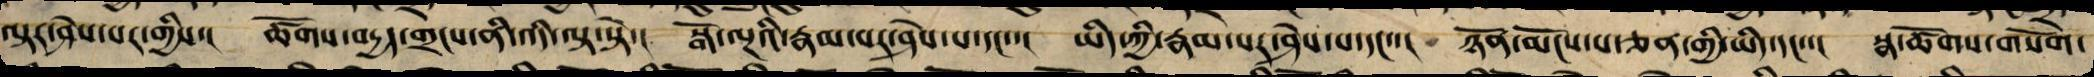ལྟར་ཤེས་པར་གྱིས་། ཚོགས་བདྱད་གྲངས་ནི་འདི་ལྟ་སྟེ་། སྒོ་ལྔའི་རྣམ་པར་ཤེས་པ་དང་་། ཡིད་ཀྱི་རྣམ་པར་ཤེས་པ་དང་་། ཉོན་མོངས་པ་ཅན་གྱི་ཡིད་དང་་། སྣ་ཚོགས་གསོག་
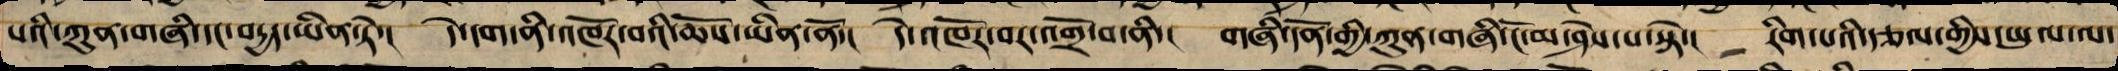པའི་ཀུན་གཞི་དང་བདྱད་ཡིན་ཏེ་། དེ་དག་ནི་འཁོར་བའི་ཆོས་ཡིན་ནོ་། དེ་འཁོར་བར་འགྲོ་བ་ནི་། གཞི་དོན་གྱི་ཀུན་གཞི་ངོ་མ་ཤེས་པ་སྟེ་། རིག་པའི་རྩལ་གྱིས་ཡུལ་ལ་
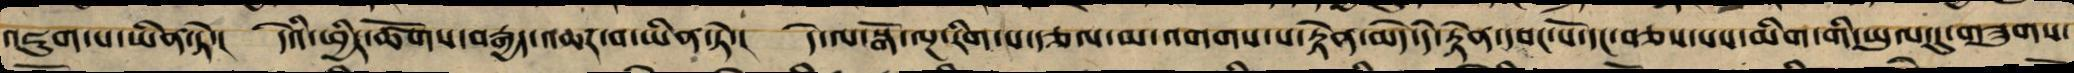འཇུག་པ་ཡིན་ཏེ་། དེའི་ཕྱིར་ཚོགས་བརྒྱད་འཆར་བ་ཡིན་ཏེ་། དེ་ལ་སྒོ་ལྔ་རིག་པ་རྩལ་མ་འགགས་པ་རྟེན་མེད་དེ་རྟེན་དབང་པོ་དང་བཅས་པས་མིག་གི་ཡུལ་དུ་གཟུགས་
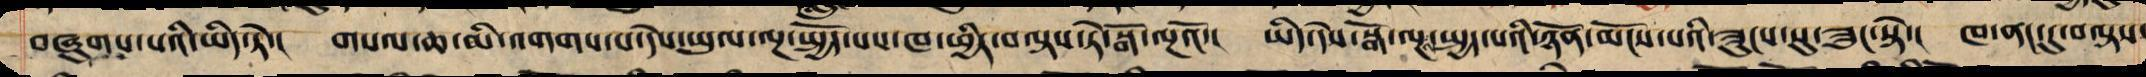བཞུགས་པའི་ཡིད་ཏེ་། གསལ་ཆ་མི་འགགས་པ་དེས་ཡུལ་ལྔ་སྤྱོད་པས་ཁ་ཕྱིར་བལྟས་ཏེ་སྒོ་ལྔའོ་། ཡིད་དེས་སྒོ་ལྔས་སྤྱད་པའི་ཉོན་མོངས་པ་ཟུངས་སུ་བཟུང་སྟེ་། ཁ་ནང་དུ་བལྟས་
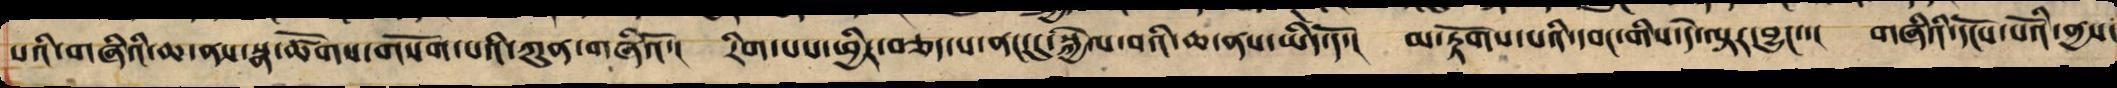པའི་གཞིའི་ཆ་ནས་སྣ་ཚོགས་གསོག་པའི་ཀུན་གཞིའོ་། རིག་པས་ཕྱིར་བཅད་པ་ནང་དུ་སྐྱེལ་བའི་ཆ་ནས་ཡིད་དོ་། མ་རྟོགས་པའི་དབང་གིས་དེ་ལྟར་བྱུང་་། གཞིའི་དངོས་པོའི་ནྱས་
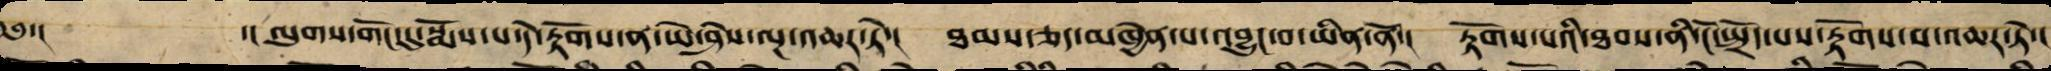༄༅་། ་། ལུགས་གོང་དུ་སྨོས་པ་དེ་རྟོགས་ན་ཡེ་ཤེས་ལྔ་འཆར་ཏེ་། ཐམས་ཅད་མཁྱེན་པ་འབྱུང་བ་ཡིན་ནོ་། རྟོགས་པའི་ཐབས་ནི་ངོ་སྤྲོད་པས་རྟོགས་པ་འཆར་ཏེ་།
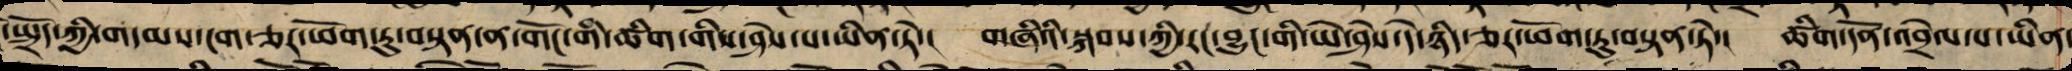་སྤྲོད་ཀྱི་གདམས་ངག་ཅར་ཕོག་ཏུ་བསྟན་ན་གོང་གི་ཚིག་གིས་ཤེས་པ་ཡིན་ཏེ་། གཞིའི་སྐབས་ཀྱི་རང་བྱུང་གི་ཡེ་ཤེས་དེ་ཉིད་ཅར་ཕོག་ཏུ་བསྟན་ཏེ་། ཚིག་དོན་འབྲེལ་པ་ཡིན་
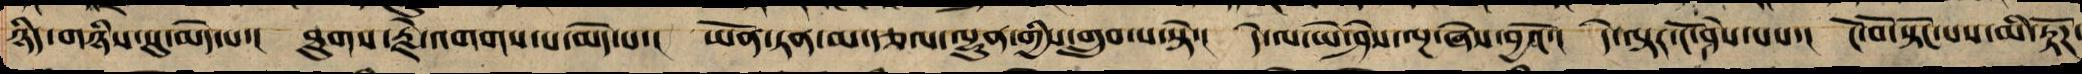ཉིད་གཉིས་སུ་མེད་པ་། ཐུགས་རྗེ་འགག་པ་མེད་པ་། ཡོན་ཏན་མ་རྩལ་ལྷུན་གྱིས་གྲུབ་པ་སྟེ་། དེ་ལ་ཡེ་ཤེས་ལྔ་ཞེས་བྱའོ་། དེ་ལྟར་ངོ་ཤེས་པས་། ངོ་བོ་སྟོང་པས་མི་རྟོཌ་
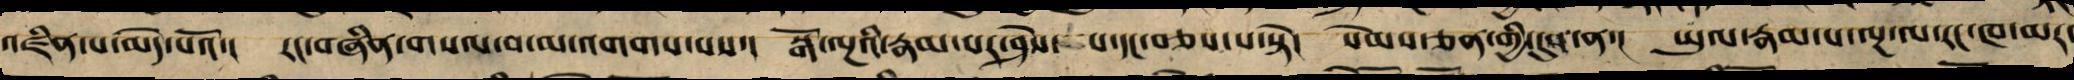འཛིན་པ་མེད་པའོ་། རང་བཞིན་གསལ་བ་མ་འགགས་པས་། སྒོ་ལྔའི་རྣམ་པར་ཤེས་ པ་དང་བཅས་པ་སྟེ། སེམས་ཅན་གྱི་དུས་ན་། ཡུལ་རྣམ་པ་ལྔ་ལ་རང་ཁ་མར་
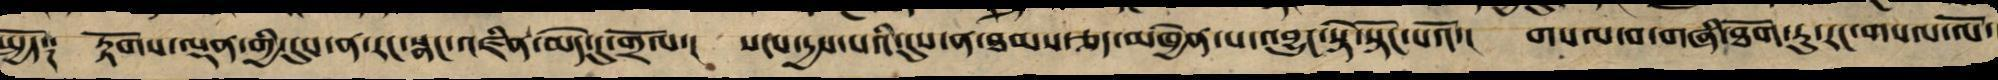སྤྱོད༑ རྟོགས་ལྡན་གྱི་དུས་ན་རང་སྣང་འཛིན་མེད་དུ་གྲོལ་། སངས་དྱས་པའི་དུས་ན་ཐམས་ཅད་མཁྱེན་པར་འབྱུང་སྟེ་སྟོང་པའོ་། གསལ་བ་གཞི་ཐོག་ཏུ་རང་གསལ་ལོ་
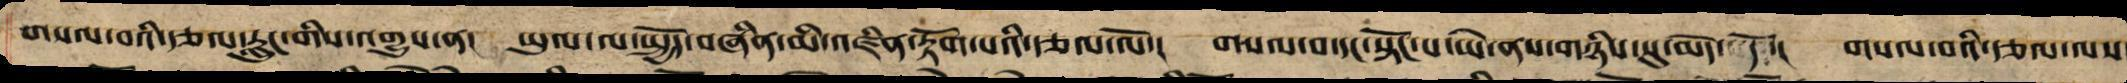གསལ་བའི་རྩལ་རླུང་གིས་འགྱུས་ན་། ཡུལ་ལ་སྤྱོད་བཞིན་དུ་མི་འཛིན་པ་རྟོགས་པའི་རྩལ་ལོ་། གསལ་བ་དང་སྟོང་པ་ཡེ་ནས་གཉིས་སུ་མེད་དེ་། གསལ་བའི་རྩལ་ལས
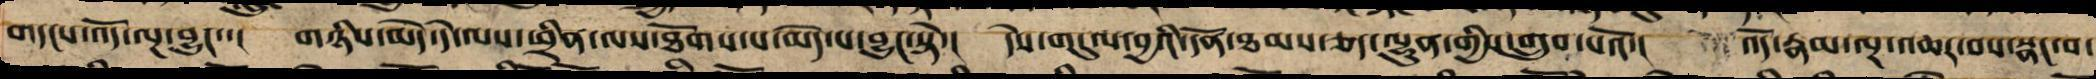གདངས་འོད་ལྔ་བྱུང་་། གཉིས་མེད་དེ་ལས་ཕྲིན་ལས་ཐོགས་པ་མེད་པ་བྱུང་སྟེ་། དེས་གདུལ་བྱའི་དོན་ཐམས་ཅད་ལྷུན་གྱིས་གྲུབ་པའོ་། འོད་རྣམ་ལྔ་འཆར་བས་སྣང་བ་
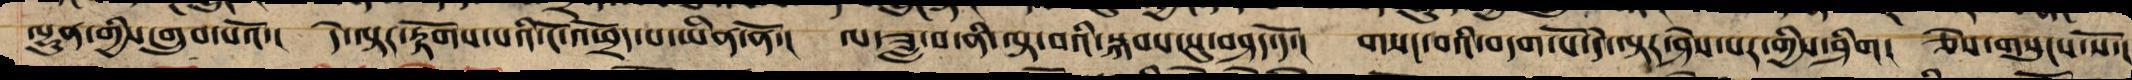ལྷུན་གྱིས་གྲུབ་པའོ་། དེ་ལྟར་རྟོགས་པས་ངོ་འཕྲོད་པ་ཡིན་ནོ་། ལ་ཟླ་བ་ནི་ལྟ་བའི་སྐབས་སུ་བཤད་དོ་། གསང་བའི་བདག་པོ་དེ་ལྟར་ཤེས་པར་གྱིས་ཤིག། ཅེས་གསུངས་སོ་།
